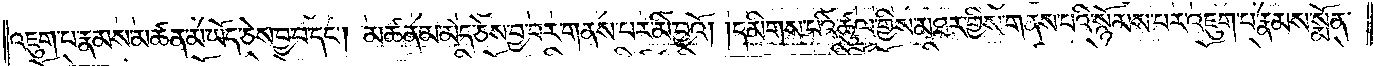འཇུག་པ་རྣམས་མཚན་མ་ཡོད་ཅེས་བྱ་བ་དང༌། མཚན་མ་མེད་ཅེས་བྱ་བར་གནས་པར་མི་བྱའོ། །དམིགས་པའི་ཚུལ་གྱིས་མཐར་གྱིས་གནས་པའི་སྙོམས་པར་འཇུག་པ་རྣམས་སྨོན་
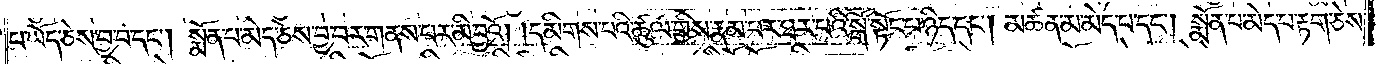པ་ཡོད་ཅེས་བྱ་བ་དང༌། སྨོན་པ་མེད་ཅེས་བྱ་བར་གནས་པར་མི་བྱའོ། །དམིགས་པའི་ཚུལ་གྱིས། རྣམ་པར་ཐར་པའི་སྒོ་སྟོང་པ་ཉིད་དང༌། མཚན་མ་མེད་པ་དང༌། སྨོན་པ་མེད་པ་རྟག་ཅེས་
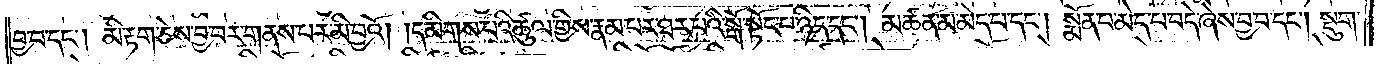བྱ་བ་དང་། མི་རྟག་ཅེས་བྱ་བར་གནས་པར་མི་བྱའོ། །དམིགས་པའི་ཚུལ་གྱིས་རྣམ་པར་ཐར་པའི་སྒོ་སྟོང་པ་ཉིད་དང༌། མཚན་མ་མེད་པ་དང༌། སྨོན་པ་མེད་པ་བདེ་ཞེས་བྱ་བ་དང༌། སྡུག་
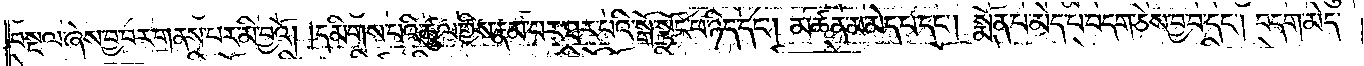བསྔལ་ཞེས་བྱ་བར་གནས་པར་མི་བྱའོ། །དམིགས་པའི་ཚུལ་གྱིས་རྣམ་པར་ཐར་པའི་སྒོ་སྟོང་པ་ཉིད་དང༌། མཚན་མ་མེད་པ་དང༌། སྨོན་པ་མེད་པ་བདག་ཅེས་བྱ་བ་དང༌། བདག་མེད་
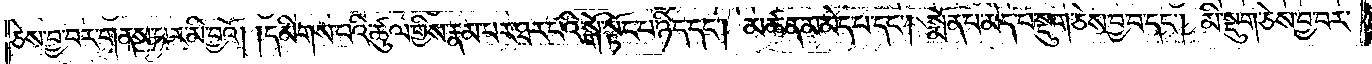ཅེས་བྱ་བར་གནས་པར་མི་བྱའོ། །དམིགས་པའི་ཚུལ་གྱིས་རྣམ་པར་ཐར་པའི་སྒོ་སྟོང་པ་ཉིད་དང༌། མཚན་མ་མེད་པ་དང༌། སྨོན་པ་མེད་པ་སྡུག་ཅེས་བྱ་བ་དང༌། མི་སྡུག་ཅེས་བྱ་བར་
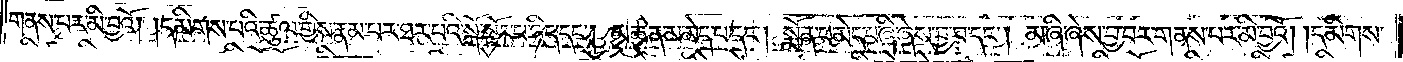གནས་པར་མི་བྱའོ། །དམིགས་པའི་ཚུལ་གྱིས་རྣམ་པར་ཐར་པའི་སྒོ་སྟོང་པ་ཉིད་དང༌། མཚན་མ་མེད་པ་དང༌། སྨོན་པ་མེད་པ་ཞི་ཞེས་བྱ་བ་དང༌། མ་ཞི་ཞེས་བྱ་བར་གནས་པར་མི་བྱའོ། །དམིགས་
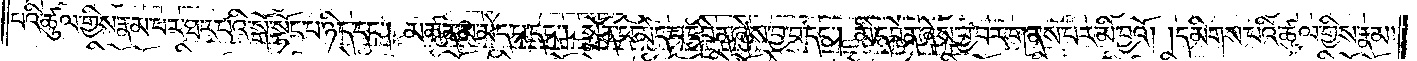པའི་ཚུལ་གྱིས་རྣམ་པར་ཐར་པའི་སྒོ་སྟོང་པ་ཉིད་དང༌། མཚན་མ་མེད་པ་དང༌། སྨོན་པ་མེད་པ་དབེན་ཞེས་བྱ་བ་དང༌། མི་དབེན་ཞེས་བྱ་བར་གནས་པར་མི་བྱའོ། །དམིགས་པའི་ཚུལ་གྱིས་རྣམ་
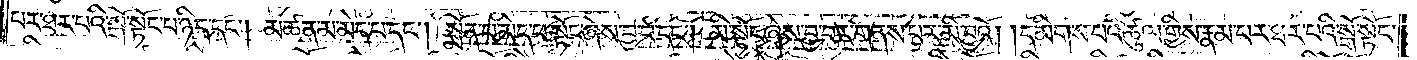པར་ཐར་པའི་སྒོ་སྟོང་པ་ཉིད་དང༌། མཚན་མ་མེད་པ་དང༌། སྨོན་པ་མེད་པ་སྟོང་ཞེས་བྱ་བ་དང༌། མི་སྟོང་ཞེས་བྱ་བར་གནས་པར་མི་བྱའོ། །དམིགས་པའི་ཚུལ་གྱིས་རྣམ་པར་ཐར་པའི་སྒོ་སྟོང་
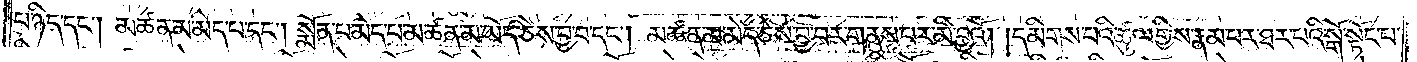པ་ཉིད་དང༌། མཚན་མ་མེད་པ་དང༌། སྨོན་པ་མེད་པ་མཚན་མ་ཡོད་ཅེས་བྱ་བ་དང༌། མཚན་མ་མེད་ཅེས་བྱ་བར་གནས་པར་མི་བྱའོ། །དམིགས་པའི་ཚུལ་གྱིས་རྣམ་པར་ཐར་པའི་སྒོ་སྟོང་པ་
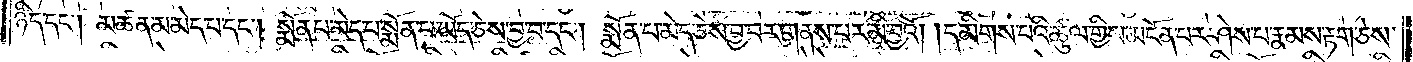ཉིད་དང༌། མཚན་མ་མེད་པ་དང༌། སྨོན་པ་མེད་པ་སྨོན་པ་ཡོད་ཅེས་བྱ་བ་དང༌། སྨོན་པ་མེད་ཅེས་བྱ་བར་གནས་པར་མི་བྱའོ། །དམིགས་པའི་ཚུལ་གྱིས་མངོན་པར་ཤེས་པ་རྣམས་རྟག་ཅེས་
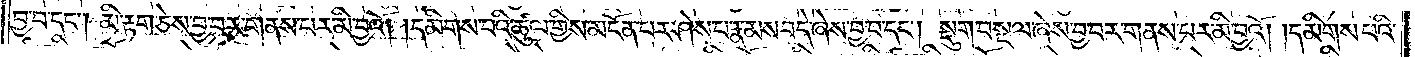བྱ་བ་དང༌། མི་རྟག་ཅེས་བྱ་བར་གནས་པར་མི་བྱའོ། །དམིགས་པའི་ཚུལ་གྱིས་མངོན་པར་ཤེས་པ་རྣམས་བདེ་ཞེས་བྱ་བ་དང༌། སྡུག་བསྔལ་ཞེས་བྱ་བར་གནས་པར་མི་བྱའོ། །དམིགས་པའི་
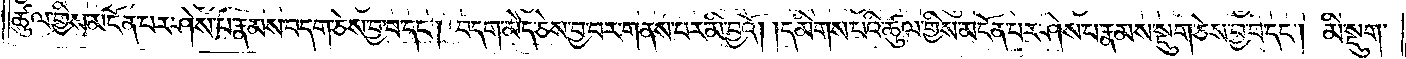ཚུལ་གྱིས་མངོན་པར་ཤེས་པ་རྣམས་བདག་ཅེས་བྱ་བ་དང༌། བདག་མེད་ཅེས་བྱ་བར་གནས་པར་མི་བྱའོ། །དམིགས་པའི་ཚུལ་གྱིས་མངོན་པར་ཤེས་པ་རྣམས་སྡུག་ཅེས་བྱ་བ་དང༌། མི་སྡུག་
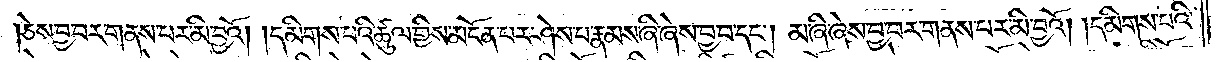།ཅེས་བྱ་བར་གནས་པར་མི་བྱའོ། །དམིགས་པའི་ཚུལ་གྱིས་མངོན་པར་ཤེས་པ་རྣམས་ཞི་ཞེས་བྱ་བ་དང༌། མ་ཞི་ཞེས་བྱ་བར་གནས་པར་མི་བྱའོ། །དམིགས་པའི་
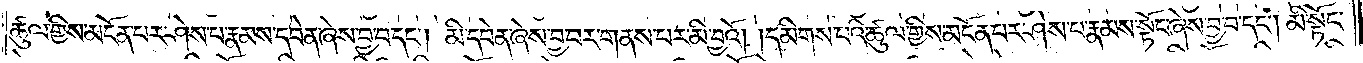ཚུལ་གྱིས་མངོན་པར་ཤེས་པ་རྣམས་དབེན་ཞེས་བྱ་བ་དང༌། མི་དབེན་ཞེས་བྱ་བར་གནས་པར་མི་བྱའོ། །དམིགས་པའི་ཚུལ་གྱིས་མངོན་པར་ཤེས་པ་རྣམས་སྟོང་ཞེས་བྱ་བ་དང༌། མི་སྟོང་
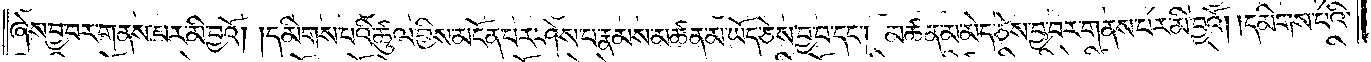ཞེས་བྱ་བར་གནས་པར་མི་བྱའོ། །དམིགས་པའི་ཚུལ་གྱིས་མངོན་པར་ཤེས་པ་རྣམས་མཚན་མ་ཡོད་ཅེས་བྱ་བ་དང༌། མཚན་མ་མེད་ཅེས་བྱ་བར་གནས་པར་མི་བྱའོ། །དམིགས་པའི་
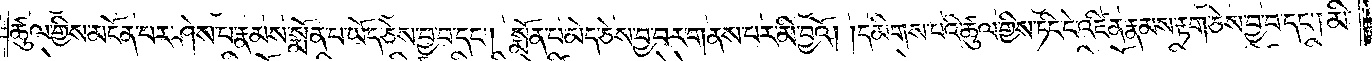ཚུལ་གྱིས་མངོན་པར་ཤེས་པ་རྣམས་སྨོན་པ་ཡོད་ཅེས་བྱ་བ་དང༌། སྨོན་པ་མེད་ཅེས་བྱ་བར་གནས་པར་མི་བྱའོ། །དམིགས་པའི་ཚུལ་གྱིས་ཏིང་ངེ་འཛིན་རྣམས་རྟག་ཅེས་བྱ་བ་དང༌། མི་
